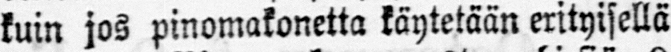kuin jos pinomakonetta käytetään erityisellä
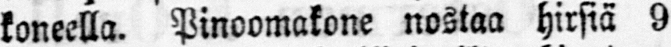koneella. Pinoomakone nostaa hirsiä 9
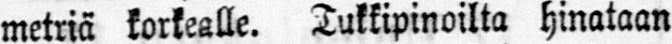metriä korkealle. Tukkipinoilta hinataan
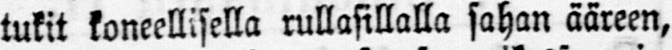tukit koneellisella rullasillalla sahan ääreen,
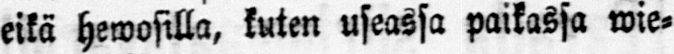eikä hewosilla, kuten useassa paikassa wie-
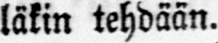läkin tehdään.
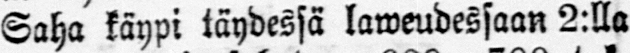Saha käypi täydessä laewudessaan 2:lla
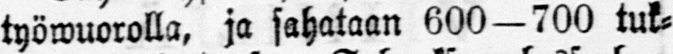työwuorolla, ja sahataan 600 —700 tuk-
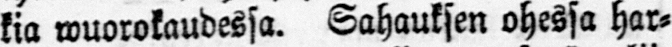kia wuorokaudessa. Sahauksen ohessa har-
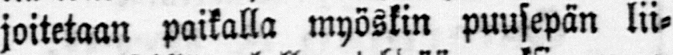joitetaan paikalla myöskin puusepän lii-
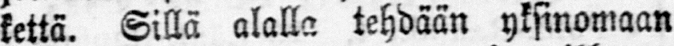kettä. Sillä alalla tehdään yksinomaan
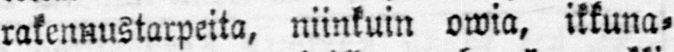rakennustarpeita, niinkuin owia, ikkuna-
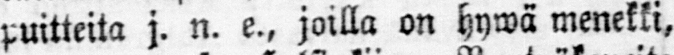puitteita j. n. e., joilla on hywä menekki,
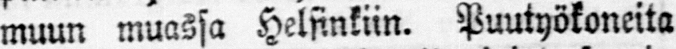muun muassa Helsinkiin. Puutyökoneita
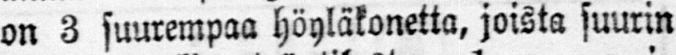on 3 suurempaa höyläkonetta, joista suurin
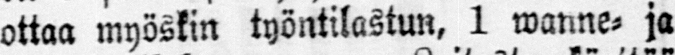ottaa myöskin työntilastun, 1 wanne- ja
